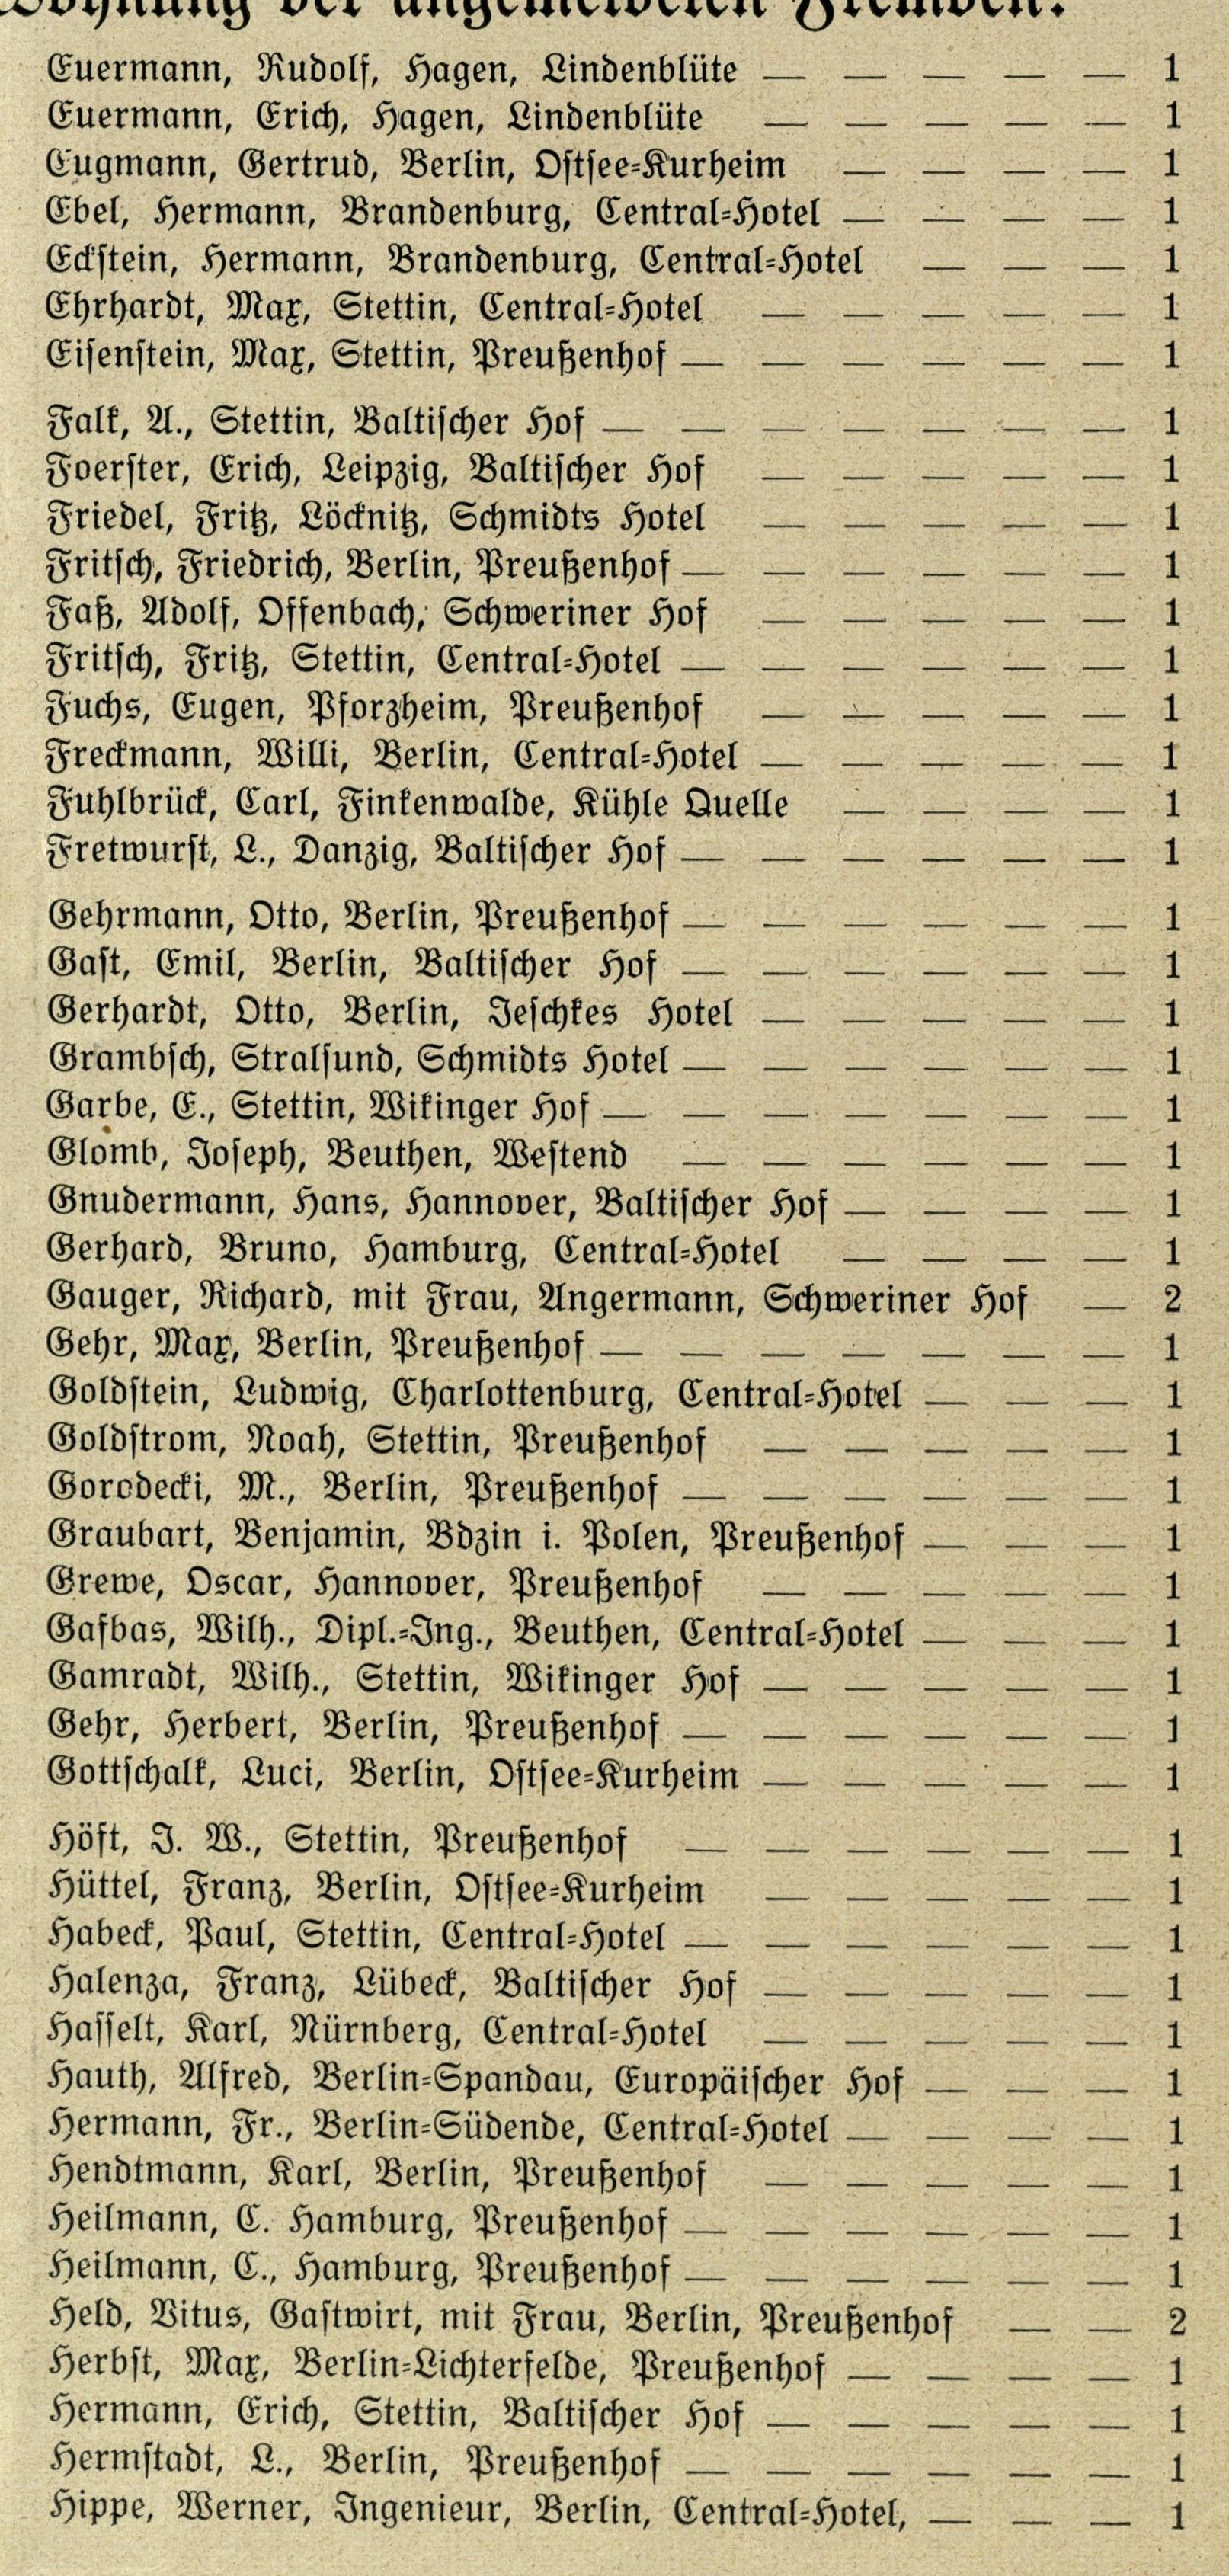Euermann, Rudolf, Hagen, Lindenblüte | 1
Euermann, Erich, Hagen, Lindenblüte | 1
Eugmann, Gertrud, Berlin, Ostsee=Kurheim | 1
Ebel, Hermann, Brandenburg, Central=Hotel | 1
Eckstein, Hermann, Brandenburg, Central=Hotel | 1
Ehrhardt, Max, Stettin, Central=Hotel | 1
Eisenstein, Max, Stettin, Preußenhof | 1
Falk, A., Stettin, Baltischer Hof | 1
Foerster, Erich, Leipzig, Baltischer Hof | 1
Friedel, Fritz, Löcknitz, Schmidts Hotel | 1
Fritsch, Friedrich, Berlin, Preußenhof | 1
Faß, Adolf, Offenbach, Schweriner Hof | 1
Fritsch, Fritz, Stettin, Central=Hotel | 1
Fuchs, Eugen, Pforzheim, Preußenhof | 1
Freckmann, Willi, Berlin, Central=Hotel | 1
Fuhlbrück, Carl, Finkenwalde, Kühle Quelle | 1
Fretwurst, L., Danzig, Baltischer Hof | 1
Gehrmann, Otto, Berlin, Preußenhof | 1
Gast, Emil, Berlin, Baltischer Hof | 1
Gerhardt, Otto, Berlin, Jeschkes Hotel | 1
Grambsch, Stralsund, Schmidts Hotel | 1
Garbe, E., Stettin, Wikinger Hof | 1
Glomb, Joseph, Beuthen, Westend | 1
Gnudermann, Hans, Hannover, Baltischer Hof | 1
Gerhard, Bruno, Hamburg, Central=Hotel | 1
Gauger, Richard, mit Frau, Angermann, Schweriner Hof | 2
Gehr, Max, Berlin, Preußenhof | 1
Goldstein, Ludwig, Charlottenburg, Central=Hotel | 1
Goldstrom, Noah, Stettin, Preußenhof | 1
Gorodecki, M., Berlin, Preußenhof | 1
Graubart, Benjamin, Bdzin i. Polen, Preußenhof | 1
Grewe, Oscar, Hannover, Preußenhof | 1
Gafbas, Wilh., Dipl.=Ing., Beuthen, Central=Hotel | 1
Gamradt, Wilh., Stettin, Wikinger Hof | 1
Gehr, Herbert, Berlin, Preußenhof | 1
Gottschalk, Luci, Berlin, Ostsee=Kurheim | 1
Höft, J. W., Stettin, Preußenhof | 1
Hüttel, Franz, Berlin, Ostsee=Kurheim | 1
Habeck, Paul, Stettin, Central=Hotel | 1
Halenza, Franz, Lübeck, Baltischer Hof | 1
Hasselt, Karl, Nürnberg, Central=Hotel | 1
Hauth, Alfred, Berlin=Spandau, Europäischer Hof | 1
Hermann, Fr., Berlin=Südende, Central=Hotel | 1
Heilmann, C. Hamburg, Preußenhof | 1
Heilmann, C., Hamburg, Preußenhof | 1
Held, Vitus, Gastwirt, mit Frau, Berlin, Preußenhof | 2
Herbst, Max, Berlin=Lichterfelde, Preußenhof | 1
Hermann, Erich, Stettin, Baltischer Hof | 1
Hermstadt, L., Berlin, Preußenhof | 1
Hippe, Werner, Ingenieur, Berlin, Central=Hotel, | 1
